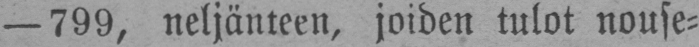— 799, neljänteen, joiden tulot nouse-
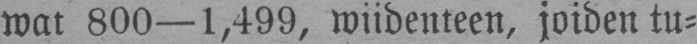wat 800—1,499, wiidenteen, joiden tu-
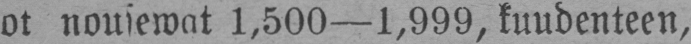ot nousewat 1,500 —1,999, kuudenteen,
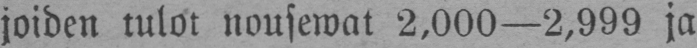joiden tulot nousewat 2,000 —2,999 ja
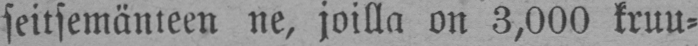seitsemänteen ne, joilla on 3,000 kruu-
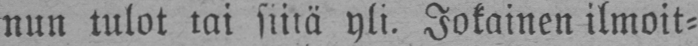nun tulot tai siitä yli. Jokainen ilmoit-
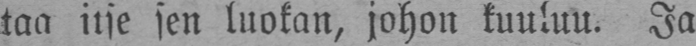taa itse sen luokan, johon kuuluu. Ja
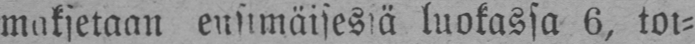maksetaan ensimäisessä luokassa 6, toi-
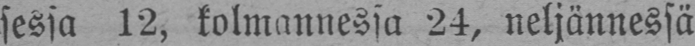sessa 12, kolmannessa 24, neljännessä
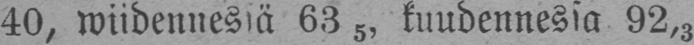40, wiidennestä 63 5, kuudennesta 92,3
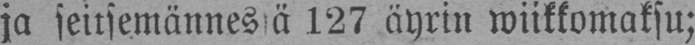ja seitsemännessä 127 äyrin wiikkomaksu;
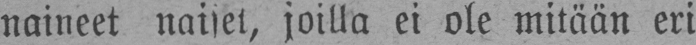naineet naiset, joilla ei ole mitään eri
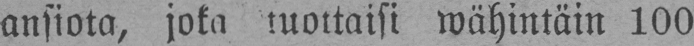ansiota, joka tuottaisi wähintäin 100
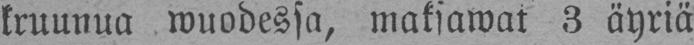kruunua wuodessa, maksawat 3 äyriä
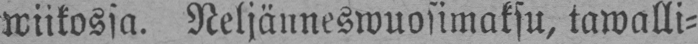wiikossa. Neljänneswuosimaksu, tawalli-
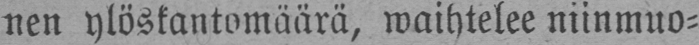nen ylöskantomäärä, waihtelee niinmuo-
